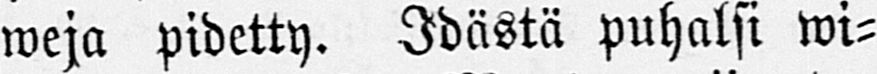weja pidetty. Idästä puhalsi wi-
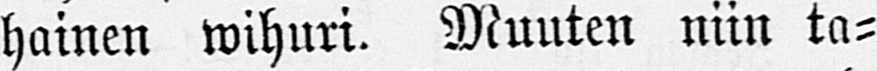hainen wihuri. Muuten niin ta-
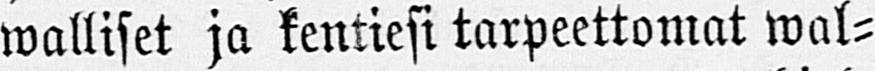walliset ja kentiesi tarpeettomat wal-
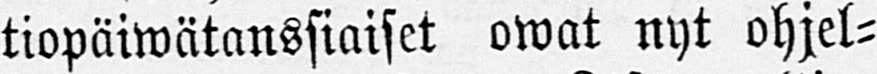tiopäiwätanssiaiset owat nyt ohjel-
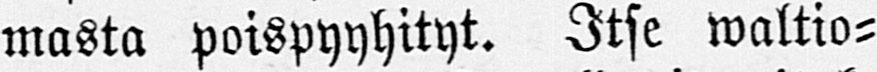masta poispyyhityt. Itse waltio-
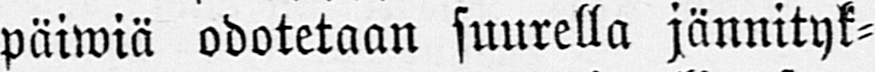päiwiä odotetaan suurella jännityk-
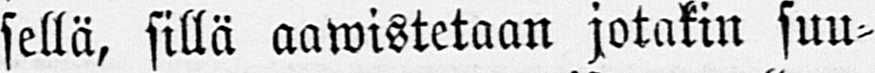sellä, sillä aawistetaan jotakin suu-
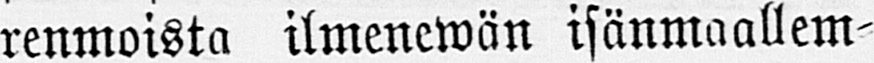renmoista ilmenewän isänmaallem-
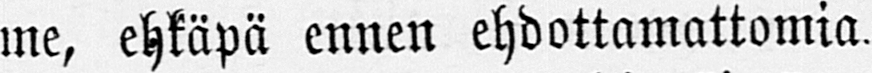me, ehkäpä ennen ehdottamattomia.
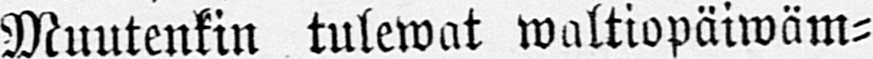Muutenkin tulewat waltiopäiwäm-
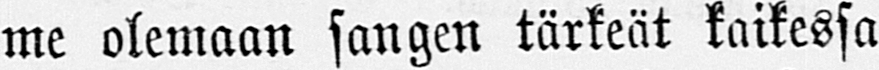me olemaan sangen tärkeät kaikessa
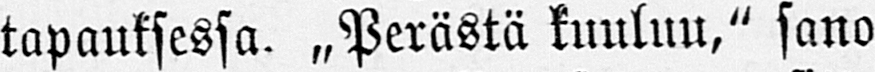tapauksessa. „Perästä kuuluu," sano
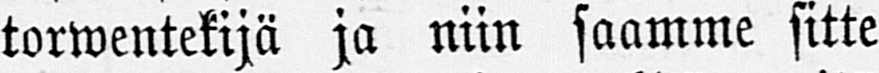torwentekijä ja niin saamme sitte
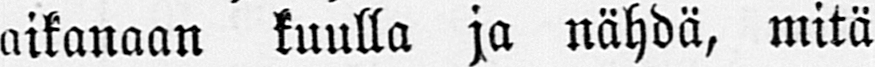aikanaan kuulla ja nähdä, mitä
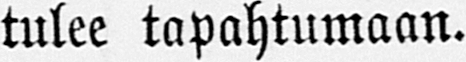tulee tapahtumaan.
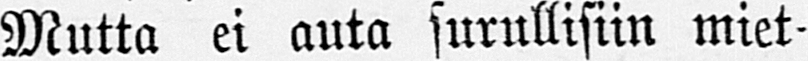Mutta ei auta surullisiin miet-
